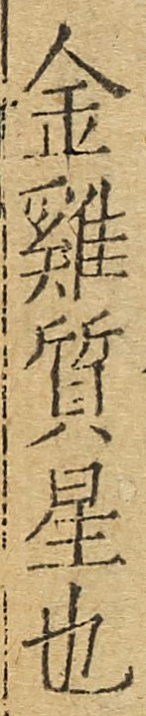金雞質星也
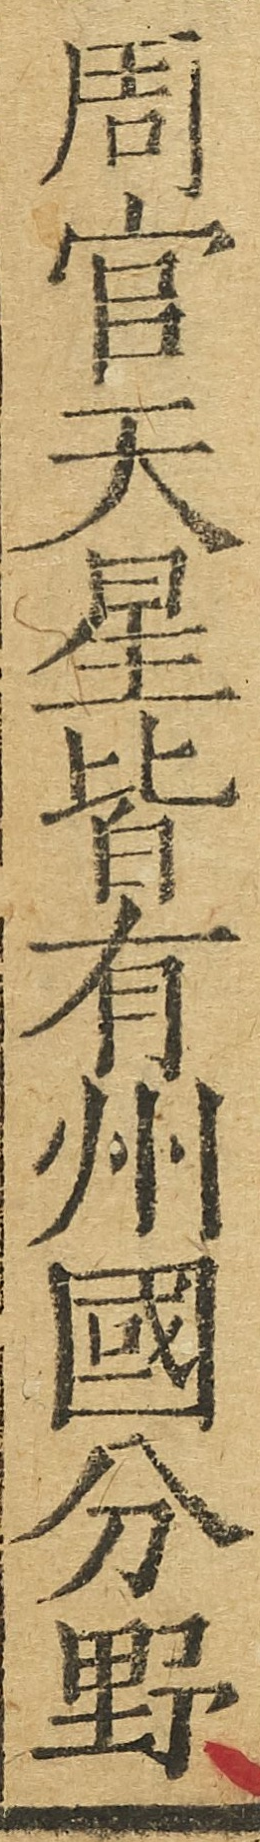周官天星皆有州國分野
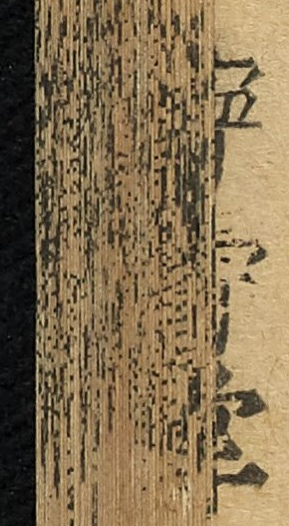寧壽堂
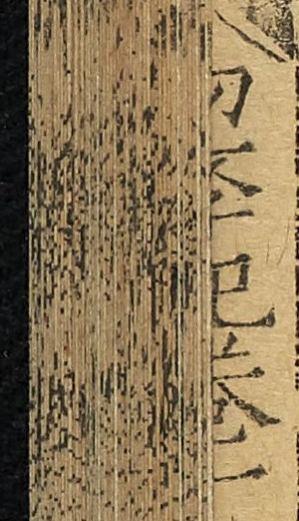初學記卷一
